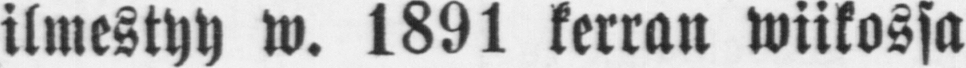ilmestyy w. 1891 kerran wiikossa
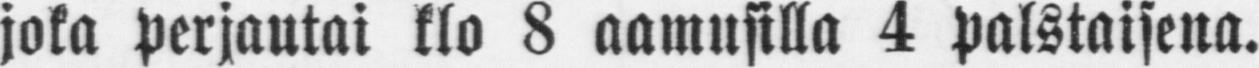joka perjautai klo 8 aamusilla 4 palstaisena.
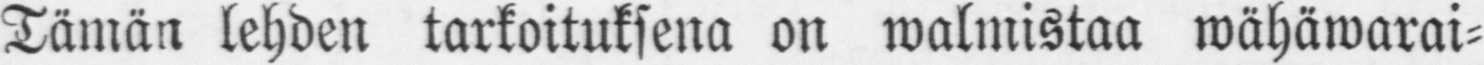Tämän lehden tarkoituksena on walmistaa wähäwarai-
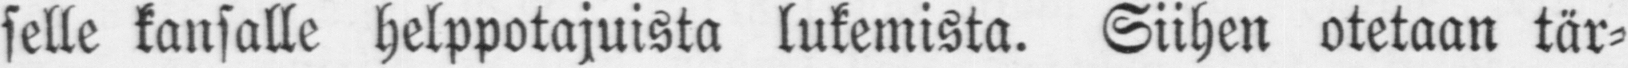selle kansalle helppotajuista lukemista. Siihen otetaan tär-
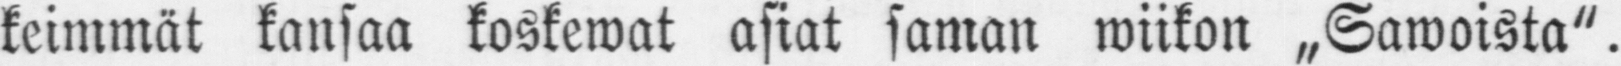keimmät kansaa koskewat asiat saman wiikon „Sawoista".
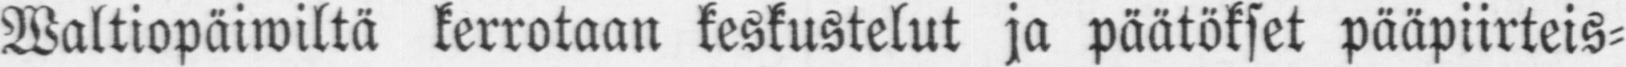Waltiopäiwiltä kerrotaan keskustelut ja päätökset pääpiirteis-
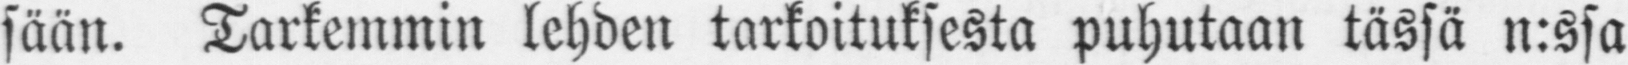sään. Tarkemmin lehden tarkoituksesta puhutaan tässä n:ssa
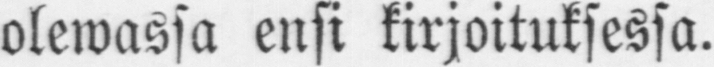olewassa ensi kirjoituksessa.
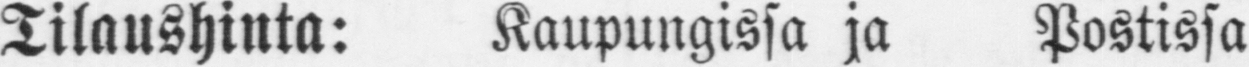Tilaushinta: Kaupungissa ja Postissa
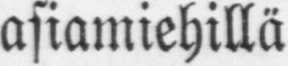asiamiehillä
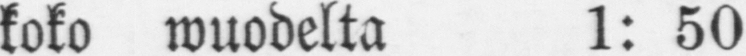koko wuodelta 1: 50
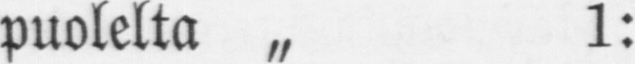puolelta „ 1:
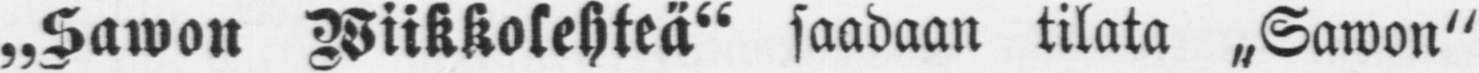„Sawon Wiikkolehteä" saadaan tilata „Sawon"
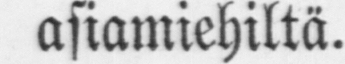asiamiehiltä.
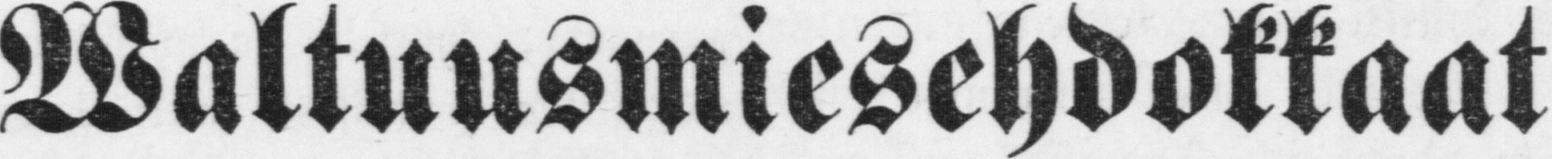Waltuusmiesehdokkaat
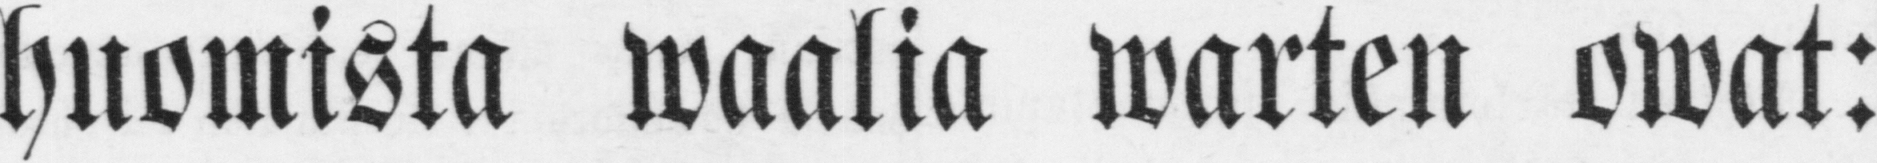huomista waalia warten owat:
